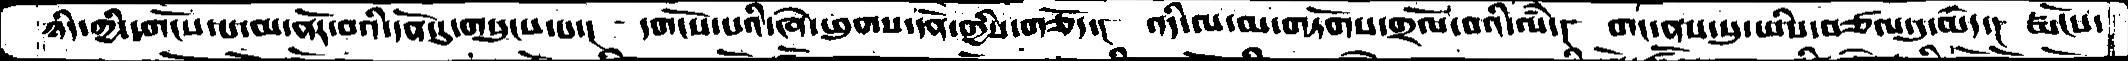ཉིད་གྱི་དགོངས་པ་མ་ནོར་བའི་དོན་དུ་གསུངས་པ་།  དགོངས་པའི་ཞེ་ཕུགས་དོན་གྱིས་གཅོད་།  འདི་ལ་མ་གཏོགས་གྲོལ་བའི་ལཾ་།  གང་ནས་སུ་ཡིས་བཙལ་དུ་མེད་།  རྨོངས་
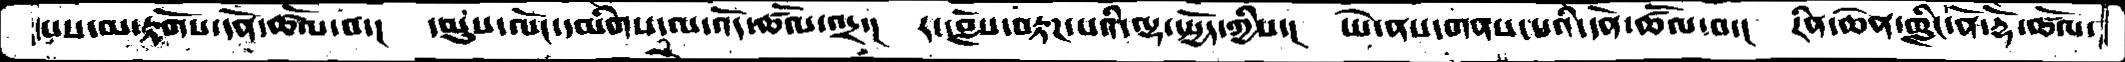པས་མ་རྟོགས་དོན་ཚོལ་བ་།  དམུས་ལོང་དམིགས་ལ་འོད་ཚོལ་འདྲ་།  རང་བློས་བརྟཌ་པའི་ལྡ་སྤྱོད་གྱིས་།  ཡེ་ནས་གནས་པའི་དོན་ཚོལ་བ་།  རིན་ཆེན་གླིང་ནོ་རྡོ་ཚོལ་
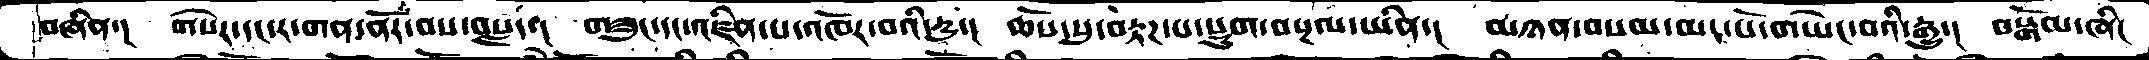བཞིན་།  གསེར་དང་ར་གན་ནོར་བས་བསླད་།  གཟུང་དང་འཛིན་པ་འཁོར་བའི་དྱུ་།  ཆོས་སུ་བརྟཌ་པ་སྡུག་བསྔལ་ཡིན་།  མཉན་བསམ་མང་པོ་གཡེང་བའི་རྒྱུ་།  བསྒོམ་ཞིང
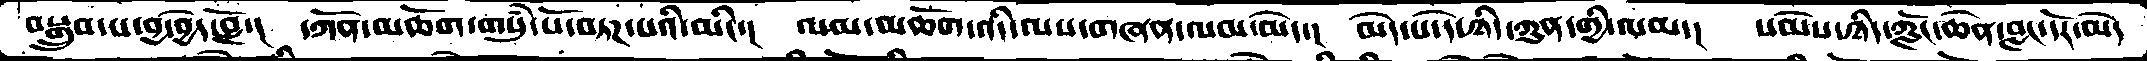བསྒྲུབ་པ་བྱ་བྱེད་བློ་།  དཀོན་མཆོག་གསུཾ་པོ་བཏཌ་པའི་མིང་།  ལམ་མཆོག་འདི་ལས་གཞན་ལམ་མེད་།  མེད་པ་དེ་ཉིད་ཀུན་གྱི་ལམ་།  སེམས་ཉིད་ཀློང་ཆེན་བླང་དོར་མེད་
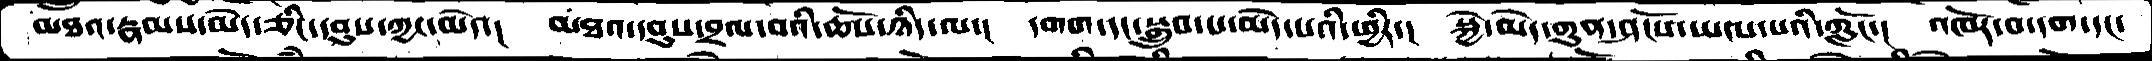མཐའ་རྣམས་མེད་ཅིང་དབུས་ཀྱང་མེད་།  མཐའ་དབུས་བྲལ་བའི་ཆོས་ཉིད་ལ་།  དགག་དང་སྒྲུབ་པ་མེད་པའི་ཕྱིར་།  སྐྱེ་མེད་གུན་ཤོངས་ཡངས་པའི་ཀློང་།  འཁོར་བ་དག་དང་
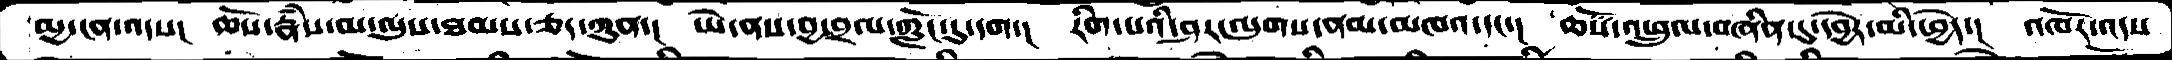མྱ་ངན་འདས་།  ཆོས་རྣཾས་མ་ལུས་ཐམསཅད་ཀུན་།  ཡེ་ནས་བྱ་བྲལ་ཀློང་དུ་དག་།  རིག་པའི་ཤར་ལུགས་ནམ་མཁའ་དང་།  ཆོས་འཕྲུལ་བཞིན་དུ་དབྱེར་མི་ཕྱེད་།  འཁོར་འདས་
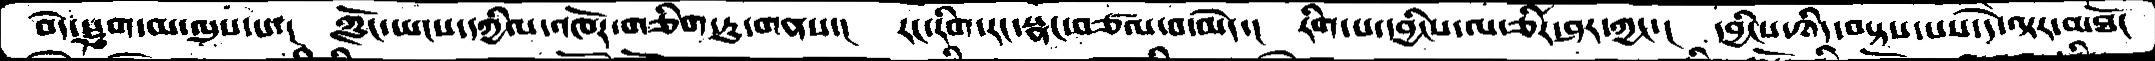བདེ་སྡུག་མ་ལུས་པ་།  ཀློང་ཡངས་དཀྱིལ་འཁོར་གཅིག་ཏུ་གནས་།  རང་རིག་རང་སྣང་བཙལ་བ་མེད་།  རིག་པ་དབྱིངས་ལ་ཅིར་ཤར་ཀྱང་།  དབྱིངས་ཉིད་བསྟས་པས་དེ་ལྟར་མཐོང
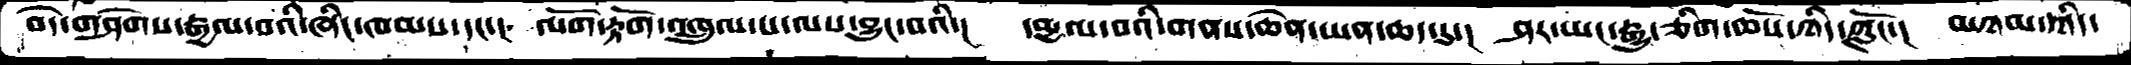བདེ་གཤེགས་རྒྱལ་བའི་ཞིང་ཁམས་དང་།  ལོག་རྟོག་འཁྲུལ་པ་ལས་བྱུང་བིའ་།   དམྱལ་བའི་གནས་ཆེན་ཡན་ཆད་དུ་།  ཤར་ཡང་རྒྱུ་ཅིག་ཆོས་ཉིད་ཀློང་།  མཉམ་ཉིད་
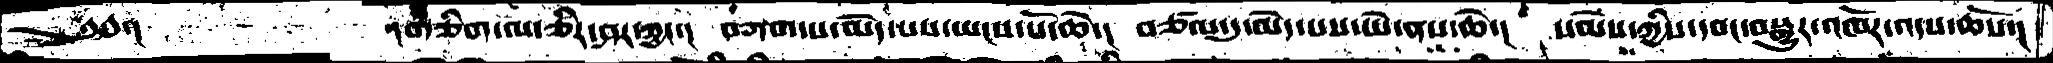༄༅་།        ་།གཅིག་ལ་ཅིར་ཤར་ཀྱང་།  བཀའ་པ་མེད་པས་ཡངས་པོ་ཆེ་།  བཙལ་དུ་མེད་པས་ཡེ་ནས་ཆེ་།  སེམས་ཀྱིས་དབང་བསྒྱུར་འཁོར་འདས་ཆོས་།
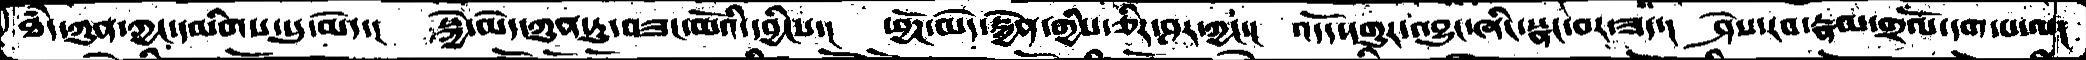ཐཾད་ཀུན་ཀྱང་དམིགས་སུ་མེད་།  སྐྱེ་མེད་ཀུན་ཏུ་བཟང་མོའི་དབྱིངས་།  ཕྱོཌ་མེད་རྐྱེན་གྱིས་ཅིར་ཤར་ཀྱང་།  འདོད་དགུར་འབྱུང་ཞིང་སྣང་བར་ཟད་།  ཤེས་རབ་རྣམ་གྲོལ་དག་པ་ལ།
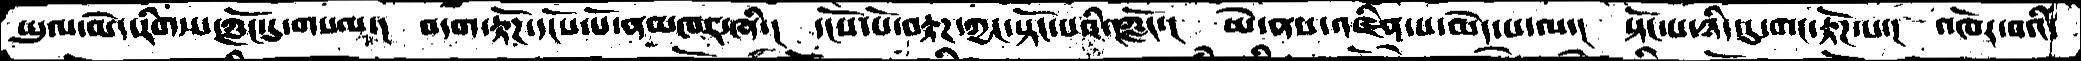ཡུལ་མེད་རིག་པ་ཀློང་དུ་གསལ་།  བདག་རྟོཌ་དངོས་པོ་ནམཁར་ཞི་།  དངོས་པོ་བརྟཌ་ཀྱང་སྟོང་པའི་ཀློང་།  ཡེ་ནས་འཛིན་པ་མེད་པ་ལ་།  སྟོང་པ་ཉིད་དུ་གང་རྟོཌ་པ་། འཁོར་བའི་
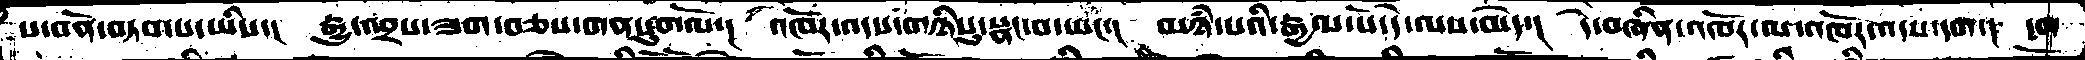ས་བོན་བཏབ་པ་ཡིས་།  རྒྱུ་འབྲས་ཟག་བཅས་གནསུགལོ་།  འཁོར་འདས་གཉིསུ་སྣང་བ་ཡང་། མཉཾ་པའི་རྒྱལ་པོ་དེ་ལས་མེད་།  དེ་བཞིན་འཁོར་ལ་འཁོར་འདས་དག་།  དག
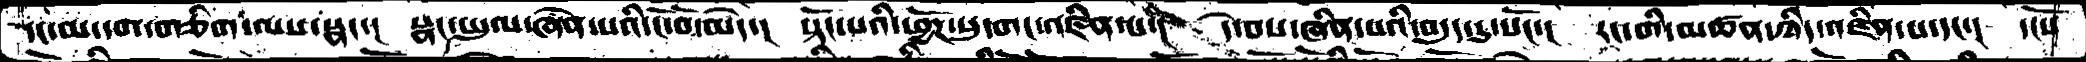དང་མ་དག་གཅིག་ལས་སྣང་།  སྣང་ཡུལ་ཞེན་པའི་ངོ་བོ་མེད་།  སྟོང་པའི་ཕྱོཌ་སུ་གང་འཛིན་པ་།  དེ་བས་ཞིན་པའི་བདུད་དུ་སོང་།  རང་གི་མཚན་ཉིད་འཛིན་པ་དང་།  དངོས
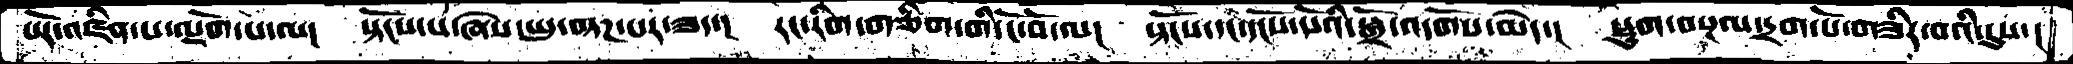པོར་འཛིན་པ་ལྡོག་པ་ལ་།  སྟོངས་པ་ཞེས་ཡུ་བཏཌ་པར་ཟད་།  རང་རིག་གཅིག་གི་ངོ་བོ་ལ།  སྟོངས་དང་དངོས་པོའི་སྒྲོ་འདོགས་མེད་།  སྡུག་བསྔལ་དྲག་པོ་གཟིར་བའི་དུས་།
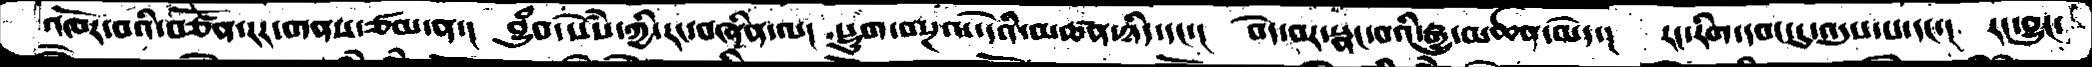འཁོར་བའི་བཙོན་རར་གནས་ཙམ་ན་།  བྱུཾབ་སེཾས་ཀྱི་རང་བཞིན་ལ།  སྡུག་བསྔལ་དེའི་མཚན་ཉིད་དང་།  བདེ་བར་སྣང་བའི་རྒྱུ་མཚན་མེད་།  རང་རིག་དབང་དུ་འདུས་པ་དང་། རང་བྱུང་
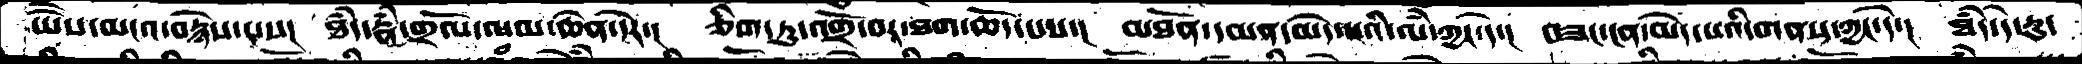ཡཻས་མངའ་བརྙེས་པས་།  ཐཾད་རྣཾ་གྲོལ་ལམ་ཆེན་དེར་།  ཅིག་ཏུ་འགྲོ་བར་ཐག་ཆོད་པས་།  མཐོན་དམན་མེད་པའི་ལཾ་ཀྱང་དེ་།  བཟང་ངན་མེད་པའི་གནས་ཀྱང་དེ་།  ཐཾད་དེ་རུ་
